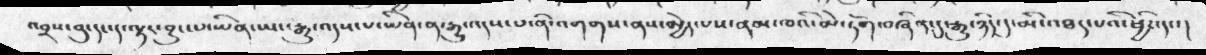འབྲས་བུ་དང་ད་ལྟར་བྱུང་པ་ཡིན་ཡང་རྒྱུ་འདས་པ་ཡིན་ན་རྒྱུ་འདས་པ་ནི་འགགས་ནས་མྱེད་པས་ནམ་ཁའི་མེ་ཏོག་བཞིན་དུ་རྒྱུ་ཉིད་དུ་མི་འཐད་པའི་ཕྱིར་དང་།
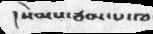། སེམས་ཙམ་པ་ཁ
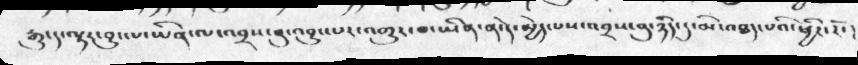རྒྱུ་ད་ལྟར་བྱུང་པ་་ཡིན་ལ་འབྲས་བུ་འབྱུར་པར་འགྱུར་བ་ཡིན་ན་དེ་མྱེད་པས་འབྲས་བུ་ཉིད་དུ་མི་འཐད་པའི་ཕྱིར་རོ་།
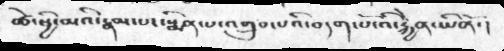ཚེ་ཕྱི་མའི་རྣམ་པར་སྨིན་པ་འགྲུབ་པའི་བདག་པོ་འི་རྐྱེན་ཡིནོ་།
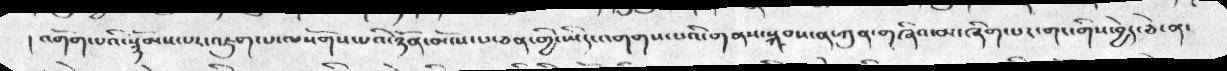། འགོག་པའི་སྙོམས་པར་འཇུག་པ་ལསོགས་པའི་ཉོན་མོངས་པ་ཅན་གྱི་ཡིད་འགགས་པའི་གནས་སྐབས་ན་ཀུན་གཞིའ་མ་ཞིག་པར་གང་གིས་བྱེད་ཅེ་ན་
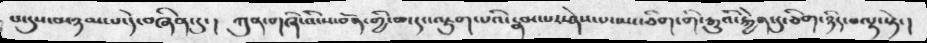པ་དུས་མཉམ་པ་དེ་བཞིན་དུ་།   ཀུན་གཞི་འི་ས་བོན་གྱི་ཆ་དང་འཇུག་པའི་རྣམ་པར་ཤེས་པ་ཡང་ཅིག་གི་རྒྱུའི་རྐྱེན་དུ་ཅིག་ཉིད་བལྟ་སྟེ་།
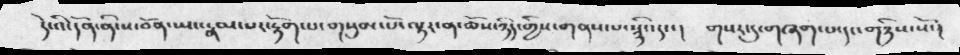དེ་འི་དོན་ནི་ས་བོན་ཡང་རྣམ་པར་རྟོག་པ་གསུམ་པོ་ལྟར་ན་ཆོས་ཉིད་ཀྱིས་གནས་པ་སྙིང་དང་།   གསར་དུ་བཞག་པ་དང་གཉིས་སོ་།
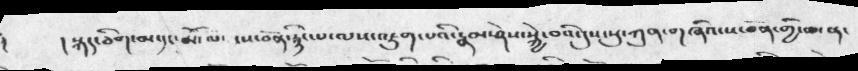།   ། སྐད་ཅིག་མ་དང་མོ་ལ་ ་ས་བོན་རྙིང་པ་ལས་འཇུག་པའི་རྣམ་ཤེས་སྐྱེ་བའི་དུས་སུ་ཀུན་གཞིའི་ས་བོན་གྱི་ཆ་ན་
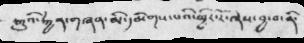རྒྱུའི་རྐྱེན་གཞན་མི་དམིགས་པའི་ཕྱིར་རོ་ཞེས་བྱ་བ་ནི་
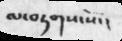ལ་བཏགས་སོ་།
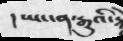ཡང་ན་རྒྱུའི་
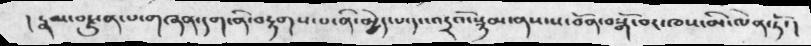།རྣམ་བརྫུན་པ་གཞན་དག་ནི་བརྟགས་པ་ནི་མྱེད་པ་དང་འདྲའོ་སྙམ་ནས་ས་བོན་བསྒོམ་བར་ཁས་མི་ལེན་ཏོ་།
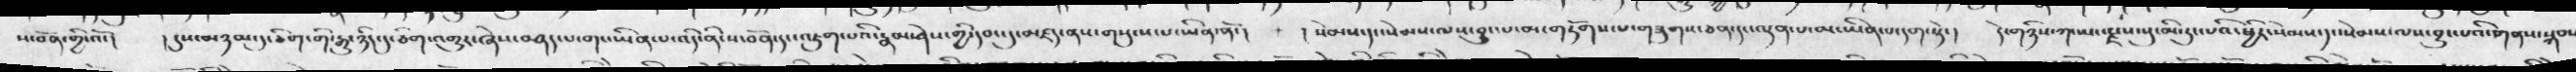ས་བོན་གྱི་འོ་།    །དུས་མཉམ་དུ་ཅིག་གི་རྒྱུ་ཉིད་དུ་ཅིག་འགྱུར་ཞེས་བཤད་པ་གང་ཡིན་པ་འདི་ནི་ས་བོན་དང་འཇུག་པའི་རྣམ་ཤེས་གྱི་དབང་དུ་མཛད་ནས་གསུངས་པ་ཡིན་ནོ་།   །སེམས་དང་སེམས་ལས་བྱུང་པ་མ་གཏོགས་པ་གཟུགས་ཅན་དང་ལྡན་པ་མ་ཡིན་པ་དག་སྟེ་།   དེ་གཉིས་ཀ་ཡང་རྫས་སུ་མི་རུང་པའི་ཕྱིར་སེམས་དང་སེམས་ལས་བྱུང་པའི་གནས་སྐབས
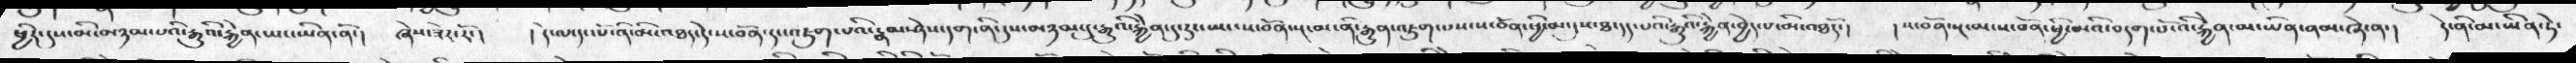ཕྱིར་དུས་མི་མཉམ་པའི་རྒྱུའི་རྐྱེན་ཡང་ཡིན་ནོ་།   ཞེས་ཟེར་རོ་།   །དེ་ལ་དང་པོ་ནི་མི་འཐད་དེ་ས་བོན་དང་འཇུག་པའི་རྣམ་ཤེས་དག་ནི་དུས་མཉམ་དུ་རྒྱུའི་རྐྱེན་དུ་རུང་ཡང་ས་བོན་སྔ་མ་ནི་རྒྱུནའཇུག་པས་ས་བོན་ཕྱི་མ་དུས་ཐ་དད་པའི་རྒྱུའི་རྐྱེན་བྱེད་པནི་འཐདོ་།  །ས་བོན་སྔ་མ་ས་བོན་ཕྱི་མའི་བདག་པོ་འི་རྐྱེན་མ་ཡིན་ནམ་ཞེ་ན་།   དེ་ནི་མཡིན་ཏེ་
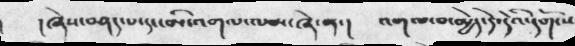།  ཞེས་བཤད་པ་དང་མི་འགལ་ལམ་ཞེ་ན་།   འགལ་བ་མྱེད་དེ་དེའིདགོས
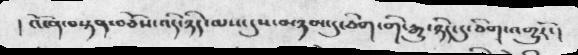།  འོ་ན་བསྟན་བཅོས་འདི་ཉིད་ལས་དུས་མཉམ་དུ་ཅིག་གི་རྒྱུ་ཉིད་དུ་ཅིག་འགྱུརོ་།
